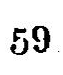59
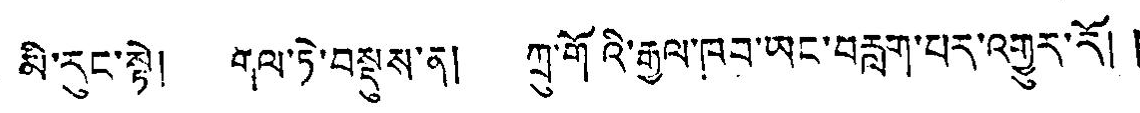མི་རུང་སྟེ། གལ་ཏེ་བསྡུས་ན། ཀྲུ་གོའི་རྒྱལ་ཁབ་ཡང་བརླག་པར་འགྱུར་རོ། །
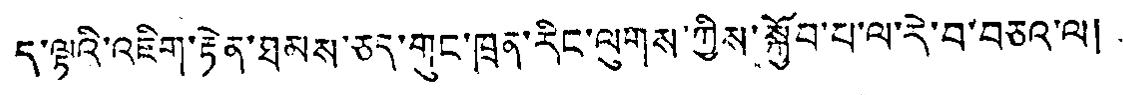ད་ལྟའི་འཇིག་རྟེན་ཐམས་ཅད་གུང་ཁྲན་རིང་ལུགས་ཀྱིས་སྐྱོབ་པ་ལ་རེ་བ་བཅའ་ལ།
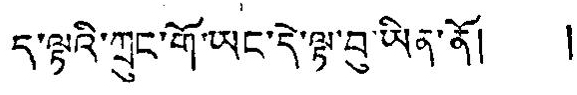ད་ལྟའི་ཀྲུང་གོ་ཡང་དེ་ལྟ་བུ་ཡིན་ནོ། །
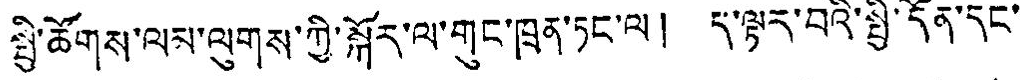སྤྱི་ཚོགས་ལམ་ལུགས་ཀྱི་སྐོར་ལ་གུང་ཁྲན་ཏང་ལ། ད་ལྟར་བའི་སྤྱི་དོན་དང་
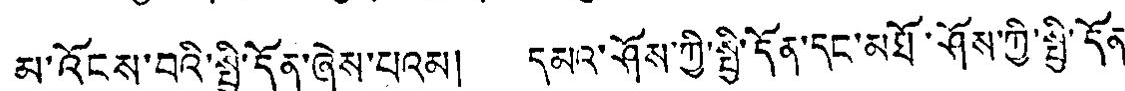མ་འོངས་བའི་སྤྱི་དོན་ཞེས་པའམ། དམའ་ཤོས་ཀྱི་སྤྱི་དོན་དང་མཐོ་ཤོས་ཀྱི་སྤྱི་དོན་
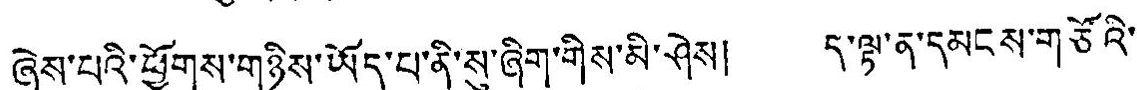ཞེས་པའི་ཕྱོགས་གཉིས་ཡོད་པ་ནི་སུ་ཞིག་གིས་མི་ཤེས། ད་ལྟ་ན་དམངས་གཙོའི་
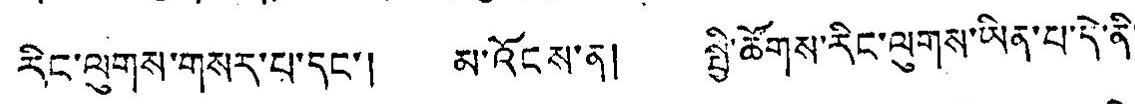རིང་ལུགས་གསར་པ་དང་། མ་འོངས་ན། སྤྱི་ཚོགས་རིང་ལུགས་ཡིན་པ་དེ་ནི་
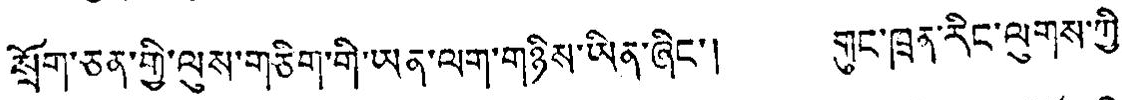སྲོག་ཅན་གྱི་ལུས་གཅིག་གི་ཡན་ལག་གཉིས་ཡིན་ཞིང་། གུང་ཁྲན་རིང་ལུགས་ཀྱི་
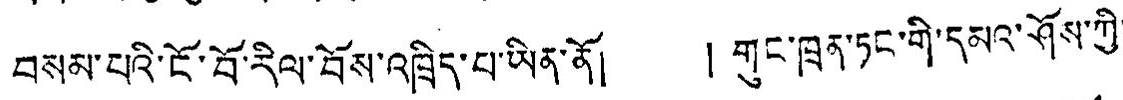བསམ་པའི་ངོ་བོ་རིལ་བོས་འཁྲིད་པ་ཡིན་ནོ། ། གུང་ཁྲན་ཏང་གི་དམའ་ཤོས་ཀྱི་
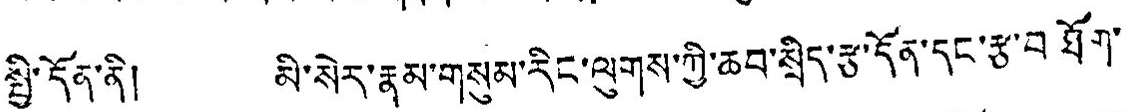སྤྱི་དོན་ནི། མི་སེར་རྣམ་གསུམ་རིང་ལུགས་ཀྱི་ཆབ་སྲིད་རྩ་དོན་དང་རྩ་བཐོག་
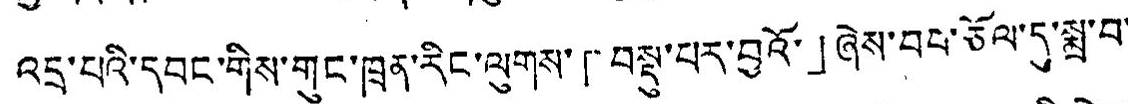འདྲ་པའི་དབང་གིས་གུང་ཁྲན་རིང་ལུགས་「བསྡུ་པར་བྱའོ་」ཞེས་བབ་ཅོལ་དུ་སྨྲ་བ་
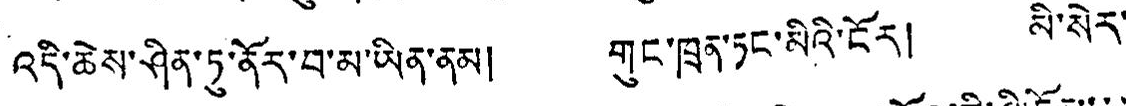འདི་ཆེས་ཤིན་ཏུ་ནོར་བ་མ་ཡིན་ནམ། གུང་ཁྲན་ཏང་མིའི་ངོར། མི་སེར་
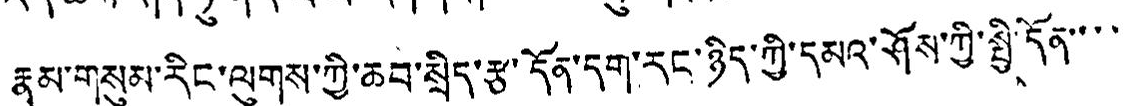རྣམ་གསུམ་རིང་ལུགས་ཀྱི་ཆབ་སྲིད་རྩ་དོན་དག་རང་ཉིད་ཀྱི་དམའ་ཤོས་ཀྱི་སྤྱི་དོན་་་་་
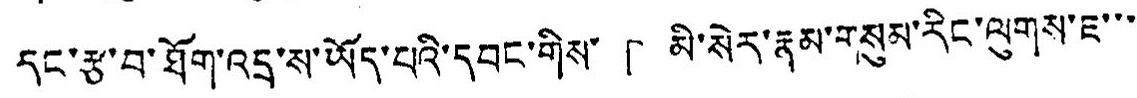དིང་རྩ་བ་ཐོག་འདྲ་ས་ཡོད་པའི་དབང་གིས་「མི་སེར་རྣམ་གསུམ་རིང་ལུགས་ཇ་་་
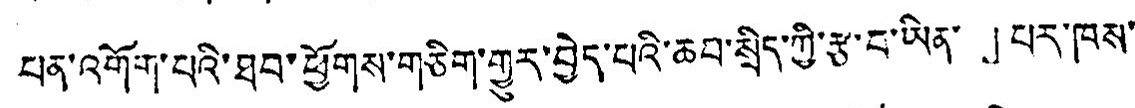པན་འགོག་པའི་ཐབ་ཕྱོགས་གཅིག་གྱུར་བྱེད་པའི་ཆབ་སྲིད་ཀྱི་རྩ་བ་ཡིན་」པར་ཁས་
